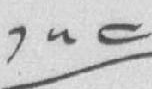༡༥༤
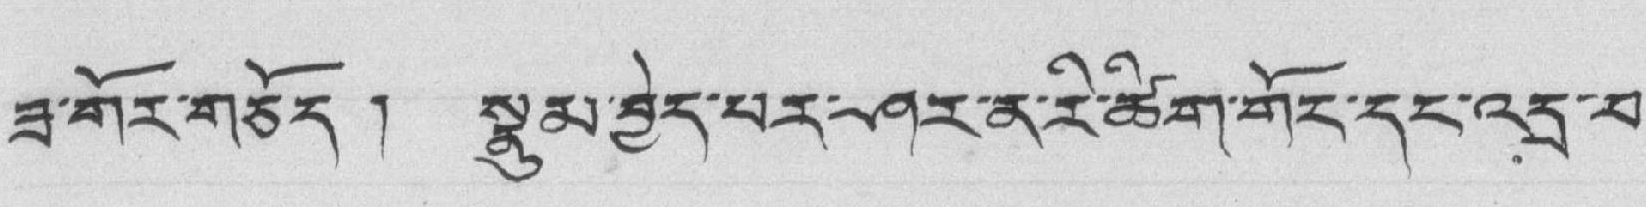ཟ་གོར་གཅོད ། སྣུམ་བྱེད་པར་ཤར་ན་རི་ཚིག་གོང་དང་འདྲ་བ་
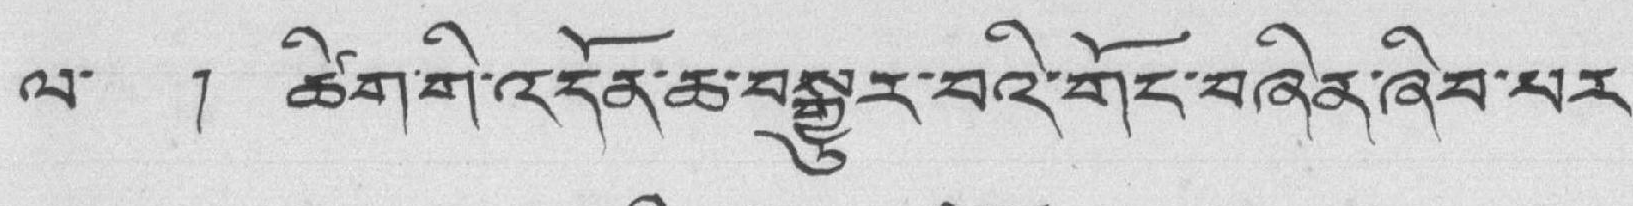ལ་ ། ཚིག་གི་འདོན་ཆ་བསྒྱུར་བའི་གོང་བཞིན་ཞིབ་པར་
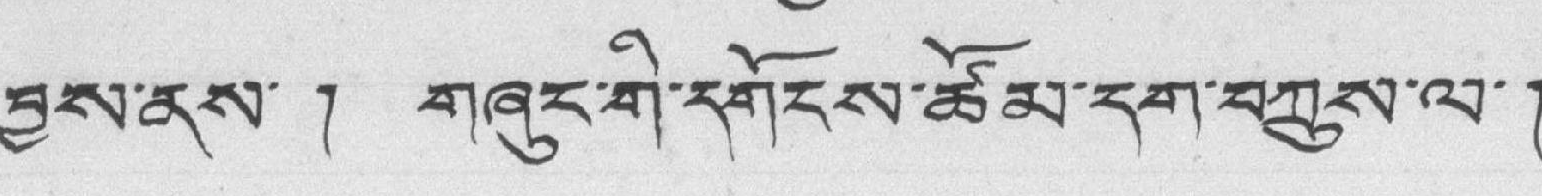བྱས་ནས་ ། གཞུང་གི་དགོངས་ཚོམ་དག་བཀྲུས་ལ་།
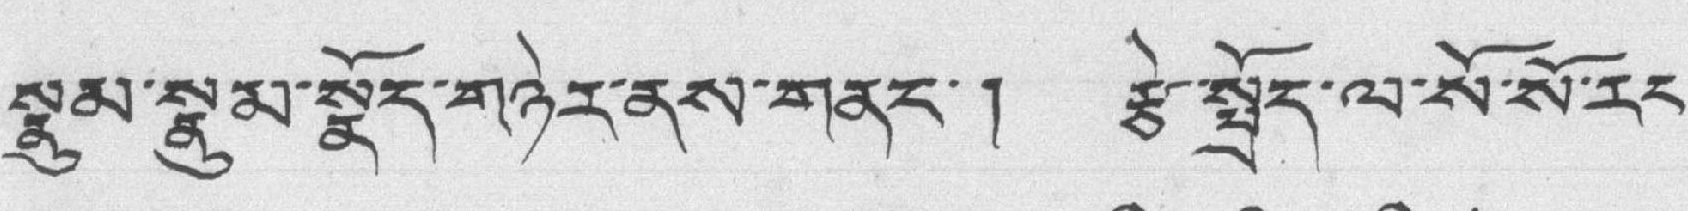སྣུམ་སྣུམ་སྣོད་གཉེར་ནས་གནང་། རྩེ་སྤྲོད་ལ་སོ་སོ་རང་
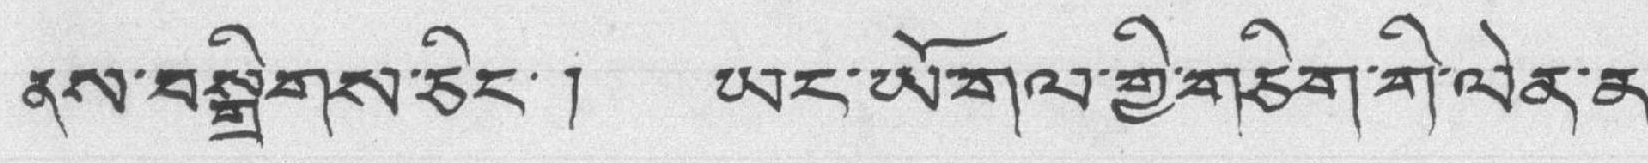ནས་བསྒྲིགས་ཅིང་ ། ཡང་ཡོ་གལ་གྱི་གཅིག་གི་ལེན་ན་
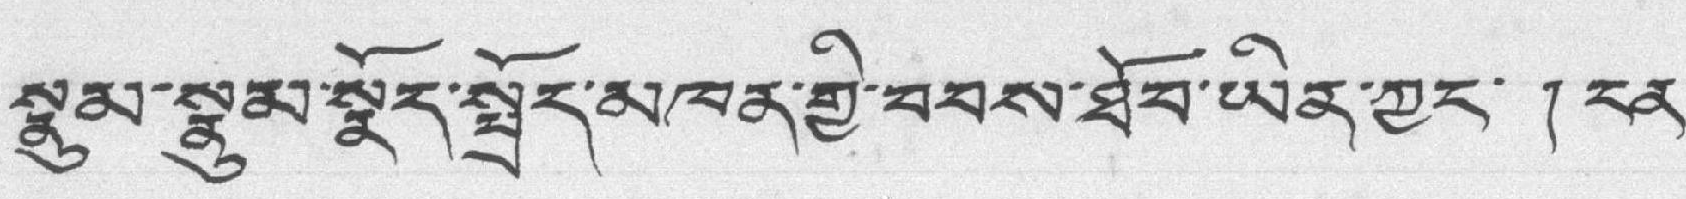སྣུམ་སྣུམ་སྣོད་སྤྲོད་མཁན་གྱི་ཐབས་ཐོབ་ཡིན་ཀྱང་ ། ངན་
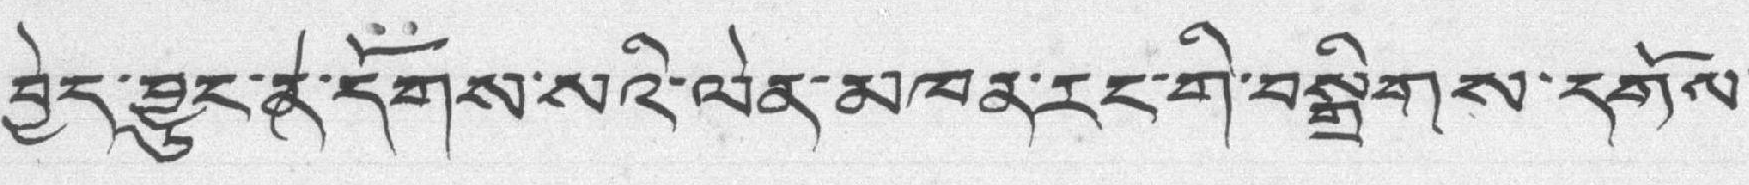བྱེད་བྱུང་ན་དོགས་པའི་ལེན་མཁན་རང་གི་བསྒྲིགས་དགོས་
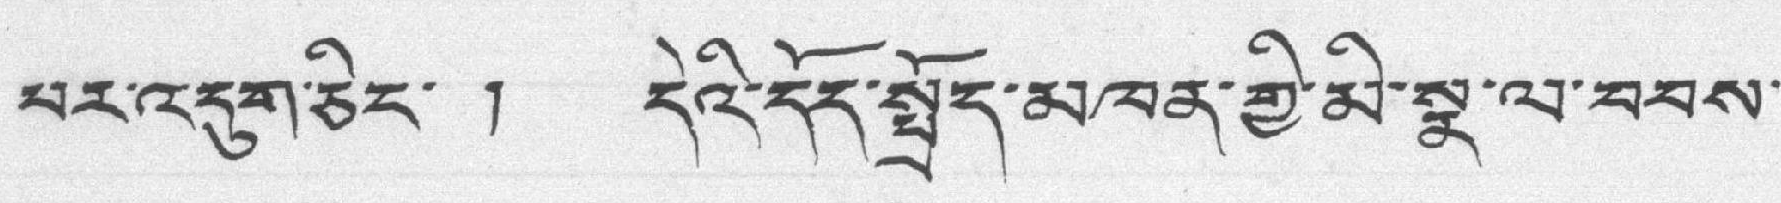པར་འདུག་ཅིང་ ། དེའི་དོད་སྤྲོད་མཁན་གྱི་མི་སྣ་ལ་བབས་
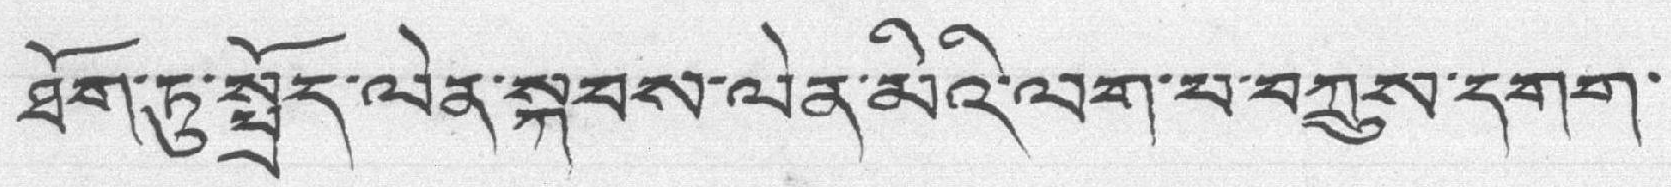ཐོག་ཏུ་སྤྲོད་ལེན་སྐབས་ལེན་མིའི་ལག་པ་བཀྲུས་དགག་
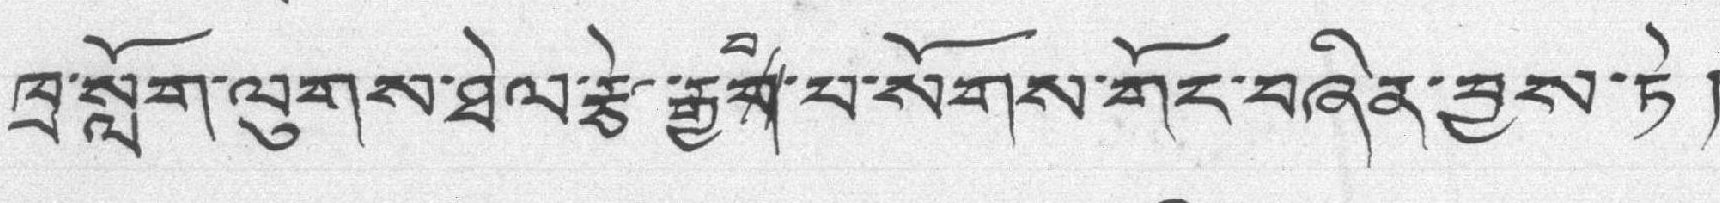ཁྲ་སློག་ལུགས་ཐེལ་རྩེ་རྒྱགབ་པ་སོགས་གོང་བཞིན་བྱས་ཏེ །
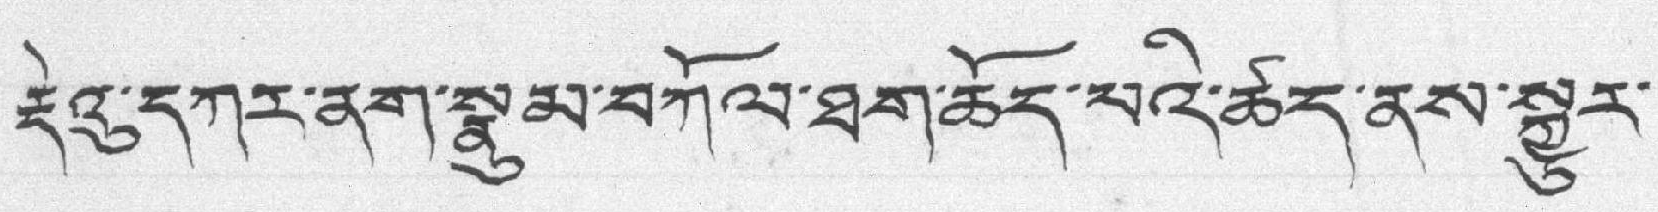རྡེའུ་དཀར་ནག་སྣུམ་བཀོལ་ཐག་ཆོད་པའི་ཚད་ནས་སྐྱུར་
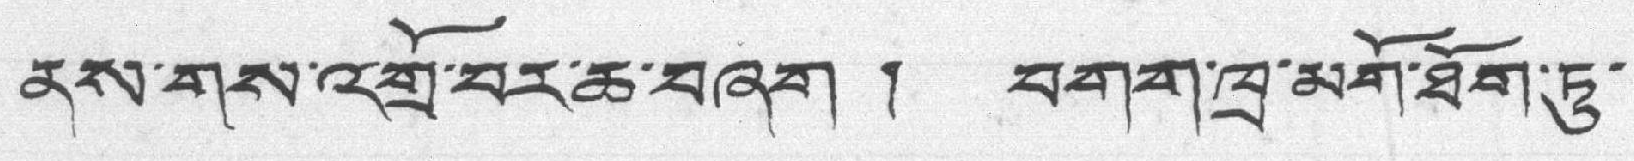ནས་གས་འགྲོ་བར་ཆ་བཞག ། བགག་ཁྲི་མགོ་ཐོག་ཏུ་
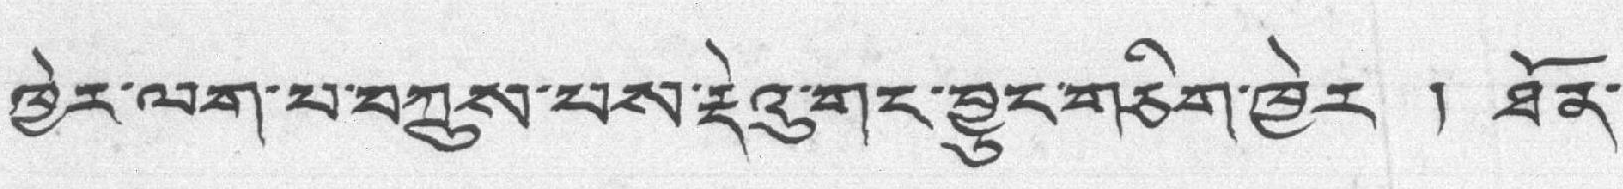ཁྱེར་ལག་པ་བཀྲུས་པས་རྡེའུ་གང་བྱུང་གཅིག་ཁྱེར ། ཐོན་
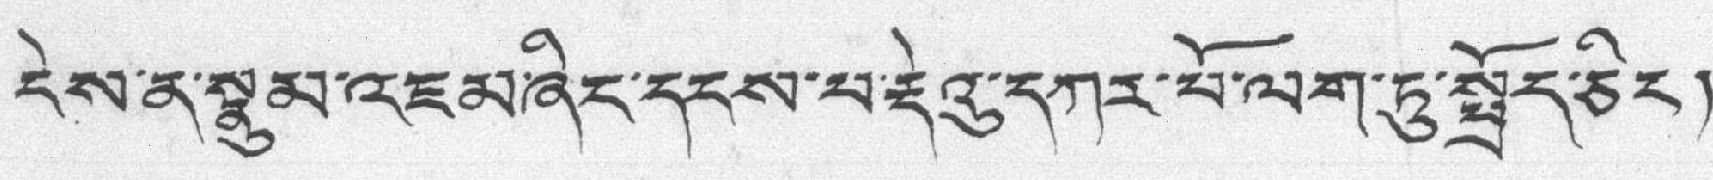ངེས་ན་སྣུམ་འཇམ་ཞིང་དངས་པ་རྡེའུ་དཀར་པོ་ལག་ཏུ་སྤྲོད་ཅིང །
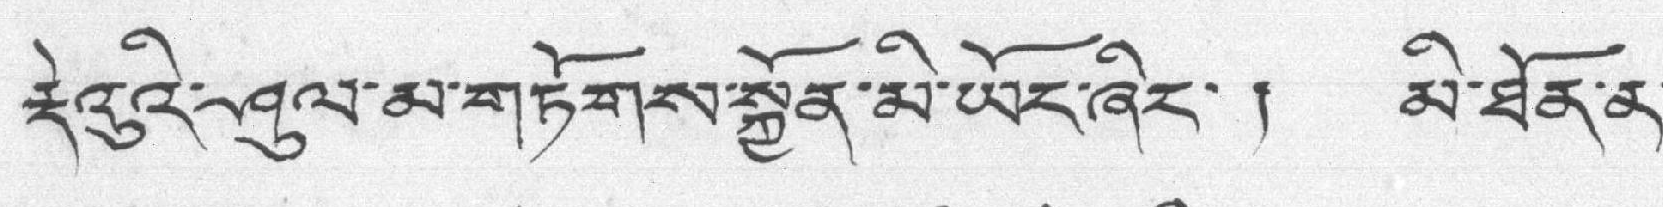རྡེའུའི་ཤུལ་མ་གཏོགས་སྐྱོན་མི་ཡོང་ཞིང་ ། མི་ཐོན་ན་
